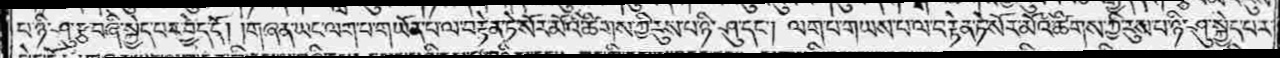པ་ཉི་ཤུ་རྩ་བཞི་སྐྱེད་པར་བྱེད་དོ། །གཞན་ཡང་ལག་པ་གཡོན་པ་ལ་བརྟེན་ཏེ་སོར་མོའི་ཚིགས་ཀྱི་རུས་པ་ཉི་ཤུ་དང༌། ལག་པ་གཡས་པ་ལ་བརྟེན་ཏེ་སོར་མོའི་ཚིགས་ཀྱི་རུས་པ་ཉི་ཤུ་སྐྱེད་པར་
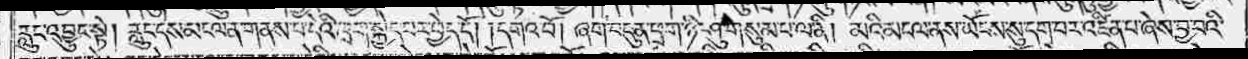རླུང་འབྱུང་སྟེ། རླུང་དེས་མངལ་ན་གནས་པ་དེའི་ཁྲག་སྐྱེད་པར་བྱེད་དོ། །དགའ་བོ། ཞག་བདུན་ཕྲག་ཉི་ཤུ་གསུམ་པ་ལ་ནི། མའི་མངལ་ནས་ཡོངས་སུ་དག་པར་འཛིན་པ་ཞེས་བྱ་བའི་
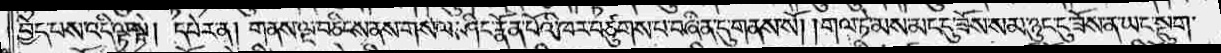བྱེད་པས་འདི་ལྟ་སྟེ། དཔེར་ན། གནས་ལྔ་བཅིངས་ནས་གསལ་ཤིང་རྣོན་པོའི་ཁར་བཅུགས་པ་བཞིན་དུ་གནས་སོ། །གལ་ཏེ་མས་མང་དུ་ཟོས་སམ་ཉུང་ངུ་ཟོས་ན་ཡང་སྡུག་
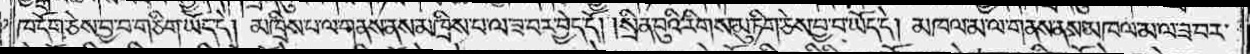ཁ་དོག་ཅེས་བྱ་བ་གཅིག་ཡོད་དེ། མཁྲིས་པ་ལ་གནས་ནས་མཁྲིས་པ་ལ་ཟ་བར་བྱེད་དོ། །སྲིན་བུའི་རིགས་མུ་ཏིག་ཅེས་བྱ་བ་ཡོད་དེ། མཁལ་མ་ལ་གནས་ནས་མཁལ་མ་ལ་ཟ་བར་
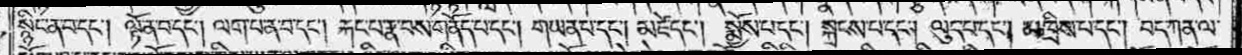སྙིང་ན་བ་དང༌། ལྟོ་ན་བ་དང༌། ལག་པ་ན་བ་དང༌། རྐང་པ་རྣ་བས་གནོད་པ་དང༌། གཡན་པ་དང༌། མཛེ་དང༌། སྨྱོས་པ་དང༌། སྐྲངས་པ་དང༌། ལུད་པ་དང༌། མཁྲིས་པ་དང༌། བད་ཀན་ལ་
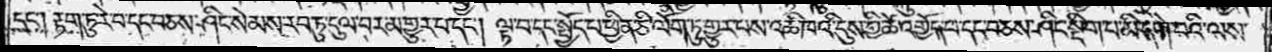དང༌། རྟག་ཏུ་རེ་བ་དང་བཅས་ཤིང་སེམས་རབ་ཏུ་དུལ་བར་མ་གྱུར་བ་དང༌། ལ་བ་དང་སྤྱོད་པ་ཕྱིན་ཅི་ལོག་ཏུ་གྱུར་བས་འཆི་ཁའི་དུས་ཀྱི་ཚེ་འགྱོད་པ་དང་བཅས་ཤིང་སྡིག་པ་མི་དགེ་བའི་ལས་
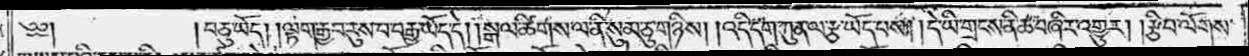༄༅༎བཅུ་ཡོད། །ལྟག་རྒྱབ་རུས་པ་བརྒྱ་ཡོད་དེ། །སྒལ་ཚིགས་ལ་ནི་སུམ་ཅུ་གཉིས། །འདི་དག་ཀུན་ལ་རྩ་ཡོད་པས། །དེ་ཡི་གྲངས་ནི་ཆ་བཞིར་འགྱུར། །རྩིབ་ལོགས་
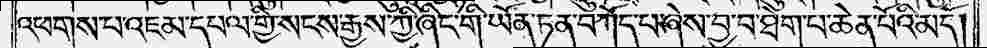འཕགས་པ་འཇམ་དཔལ་གྱི་སངས་རྒྱས་ཀྱི་ཞིང་གི་ཡོན་ཏན་བཀོད་པ་ཞེས་བྱ་བ་ཐེག་པ་ཆེན་པོའི་མདོ།
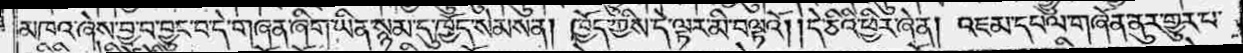མཁའ་ཞེས་བྱ་བ་བྱུང་བ་དེ་གཞན་ཞིག་ཡིན་སྙམ་དུ་ཁྱོད་སེམས་ན། ཁྱོད་ཀྱིས་དེ་ལྟར་མི་བལྟའོ། །དེ་ཅིའི་ཕྱིར་ཞེ་ན། འཇམ་དཔལ་གཞོན་ནུར་གྱུར་པ་
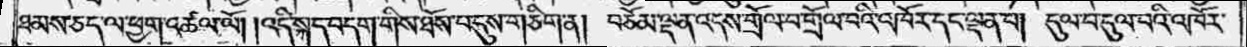ཐམས་ཅད་ལ་ཕྱག་འཚལ་ལོ། །འདི་སྐད་བདག་གིས་ཐོས་པ་དུས་གཅིག་ན། བཅོམ་ལྡན་འདས་གྲོལ་བ་གྲོལ་བའི་འཁོར་དང་ལྡན་པ། དུལ་བ་དུལ་བའི་འཁོར་
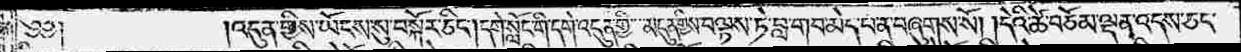༄༅༎འདུན་གྱིས་ཡོངས་སུ་བསྐོར་ཅིང༌། །དགེ་སློང་གི་དགེ་འདུན་གྱི་མདུན་གྱིས་བལྟས་ཏེ་བླ་གབ་མེད་པ་ན་བཞུགས་སོ། །དེའི་ཚེ་བཅོམ་ལྡན་འདས་ཅང་
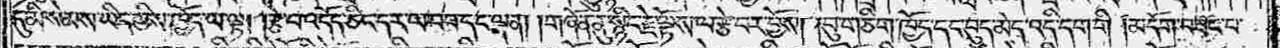དུ་མི་སེམས་ཡིད་ཀྱིས་ཁྱོད་ལ་ལྟ། །རྩེ་བ་འདོད་ཅིང་དར་ལ་བབ་དང་ལྡན། །གཞོན་ནུ་སྙིང་རྗེ་ལྟོས་ལ་རྩེ་བར་བྱོས། །བུ་གཅིག་ཁྱོད་དང་བུད་མེད་འདི་དག་གི །མདོག་བཟང་བ་
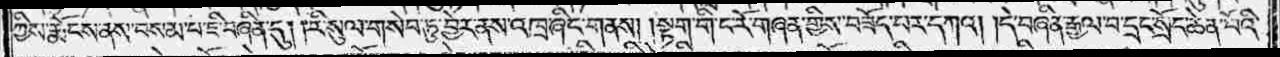ཀྱིས་རྨོངས་ནས་བསམ་པ་ཇི་བཞིན་དུ། །རི་སུལ་གསེབ་ཏུ་བྱེར་ནས་འཁྲ་ཞིང་གནས། །སྟག་གི་ང་རོ་གཞན་གྱིས་བཟོད་པར་དཀའ། །དེ་བཞིན་རྒྱལ་བ་དྲང་སྲོང་ཆེན་པོའི་
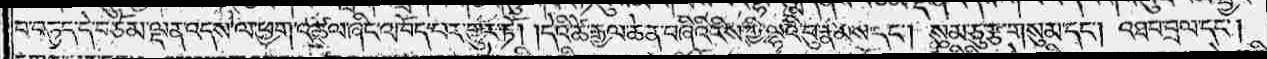བ་བཏུད་དེ་བཅོམ་ལྡན་འདས་ལ་ཕྱག་འཚལ་ཞིང་འཁོད་པར་གྱུར་ཏོ། །དེའི་ཚེ་རྒྱལ་ཆེན་བཞིའི་རིས་ཀྱི་ལྷའི་བུ་རྣམས་དང༌། སུམ་ཅུ་རྩ་གསུམ་དང༌། འཐབ་བྲལ་དང༌།
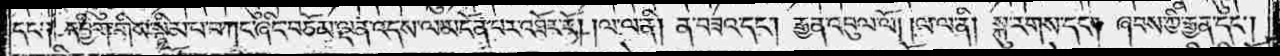དང་༑ དབྱིག་གིས་སྙིམ་པ་བཀང་ཞིང་བཅོམ་ལྡན་འདས་ལ་མངོན་པར་འཐོར་རོ། །ལ་ལ་ནི། ན་བཟའ་དང༌། རྒྱན་འབུལ་ལོ། །ལ་ལ་ནི། སྐུ་རགས་དང༌། ཞབས་ཀྱི་རྒྱན་དང༌།
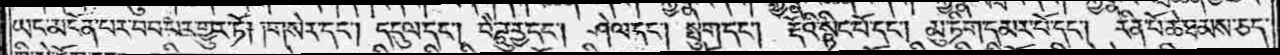ཡང་མངོན་པར་བབ་པར་གྱུར་ཏོ། །གསེར་དང༌། དངུལ་དང༌། བཻ་ཌཱུཪྻ་དང༌། ཤེལ་དང༌། སྤུག་དང༌། རྡོའི་སྙིང་པོ་དང༌། མུ་ཏིག་དམར་པོ་དང༌། རིན་པོ་ཆེ་ཐམས་ཅད་
